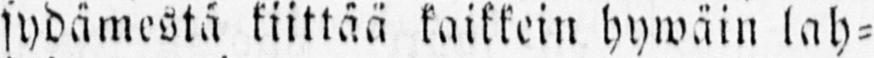sydämestä kiittää kaikkein hywäin lah-
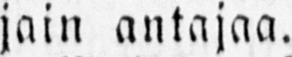jani antajaa.
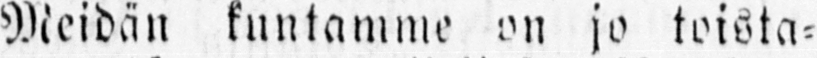Meidän kuntamme on jo toista-
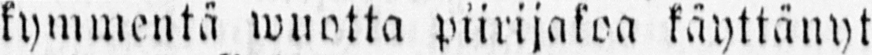kymmentä wuotta piirijakoa käyttänyt
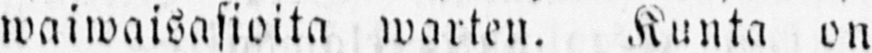waiwaisasioita warten. Kunta on
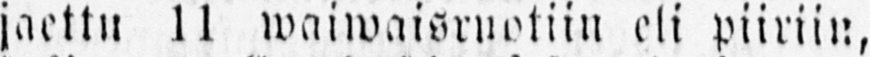jaettu 11 waiwaisruotiin eli piiriin,
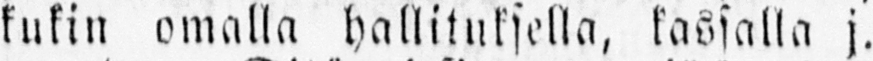kukin omalla hallituksella, kassalla j.
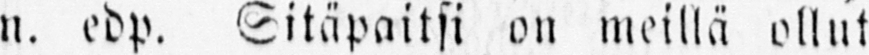n. edp. Sitäpaitsi on meillä ollut
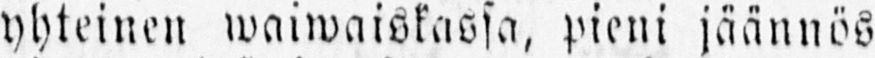yhteinen waiwaiskassa, pieni jäännös
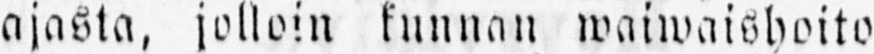ajasta, jolloin kunnan waiwaishoito
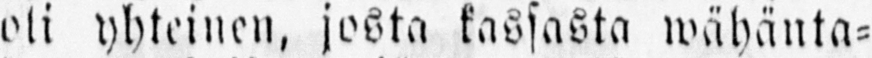oli yhteinen, josta kassasta wähänta-
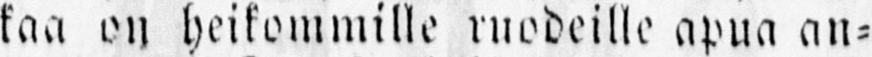kaa on heikommille ruodeille apua an-
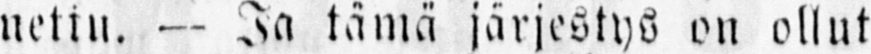nettu. — Ja tämä järjestys on ollut
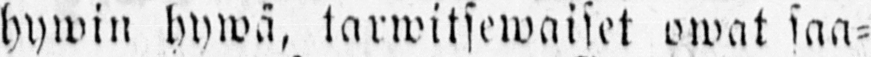hywin hywä, tarwitsewaiset owat saa-
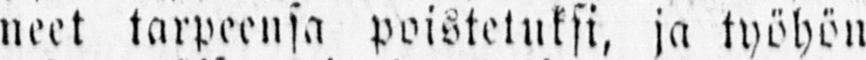neet tarpeensa poistetuksi, ja työhön
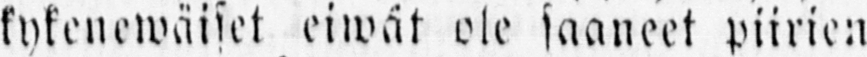kykenewäiset eiwät ole saaneet piirien
